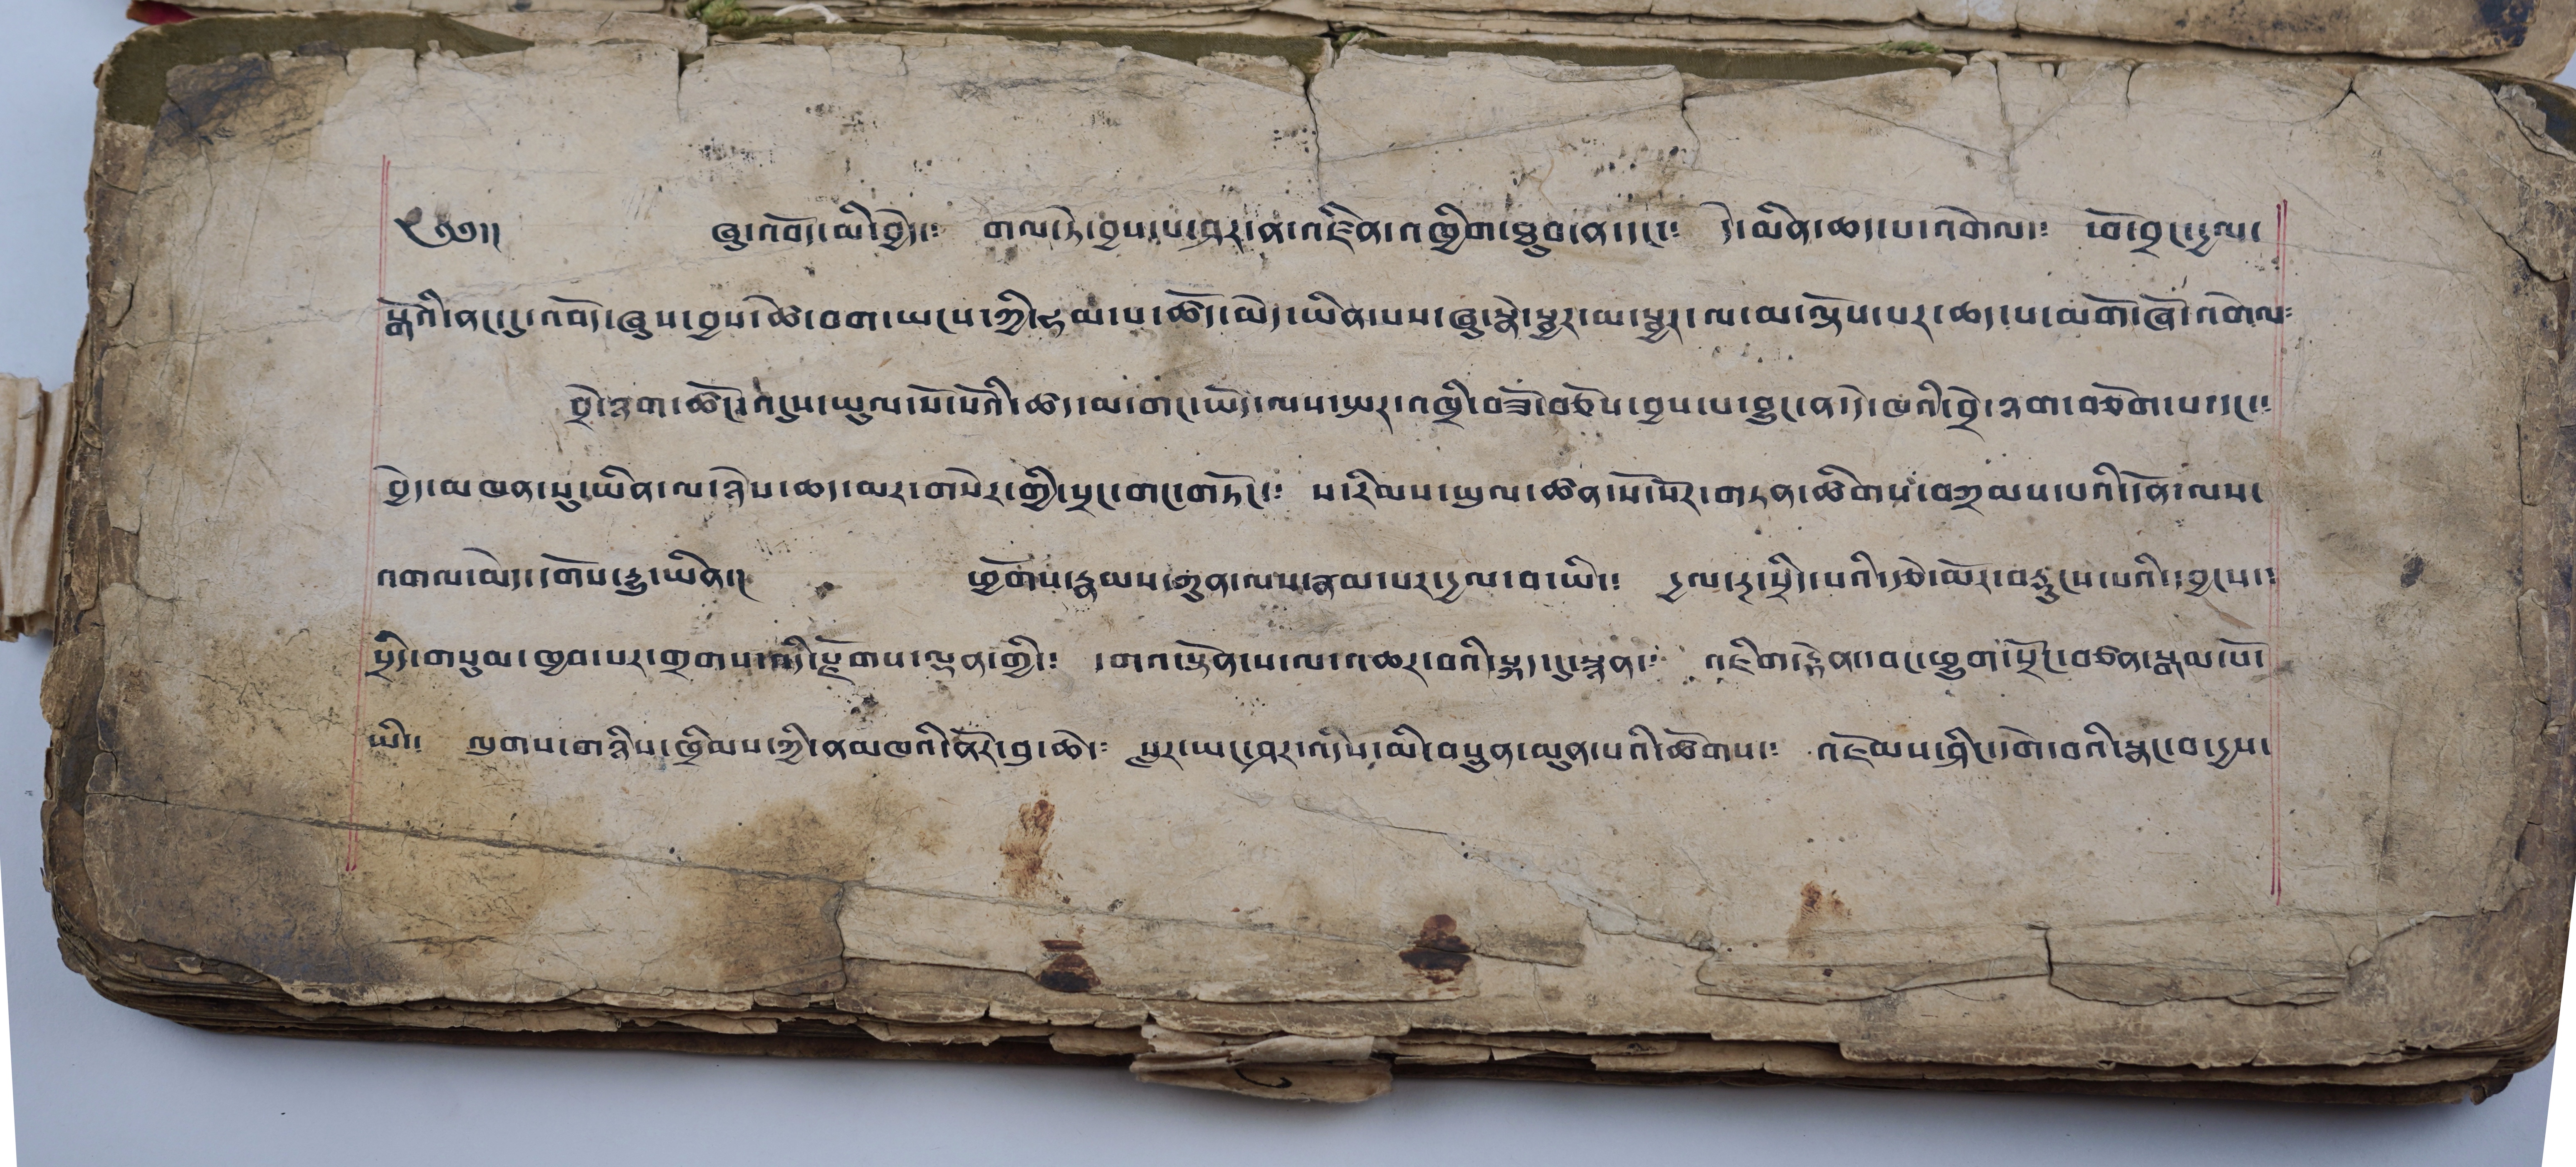༡༥
༄༅།། ཞུ་འབོད་མི་བྱེད་༴ གལ་ཏེ་བྱས་པ་ཤར་ན་འཛིན་འཁྱིག་ཐུབ་ན་དང་༴ དེ་མིན་ཆད་པ་འགེལ་༴ ཕོ་བྲང་དྱལ་
སྒོའི་ནང་དུ་འབོད་ཞུས་བྱས་ཚེ་བག་ཡངས་ཀྱི་ཧམ་པ་ཚོད་མེད་ཡིན་པས་ཞུ་སྣེ་སྦྱར་མ་སྦྱར་ལ་མ་ལྟོས་པར་ཆད་པ་མགོ་ཞོ་འགེལ༴
བྲེ་ཉག་ཚོང་འདུས་ཡུལ་སོ་སོའི་ཚད་མ་གང་ཡོད་ལས་སྤར་འཁྲི་བཟོ་བཅོས་བྱས་པ་བྱུང་ན་དེ་ཁའི་བྲེ་ཉག་བཅོག་པ་དང་༴
བྱེད་མཁན་སུ་ཡིན་ལ་ཉེས་ཆད་མར་གསེར་གྱི་སྲང་གང་གཏོང་༴ ས་རིམས་ཡུལ་ཚན་སོ་སོར་གཏན་ཚིགས་བཀྲམས་པའི་དོན་ལས་
འགལ་མེད་དགོས་རྒྱུ་ཡིན་༴ ཕྱོགས་རྣམས་ཀུན་ལས་རྣམ་པར་དྱལ་བ་ཡི་༴ དྱལ་རྔ་སྲིད་པའི་རྩེ་མོར་བརྡུངས་པའི་དབྱངས་༴
སྲིད་གསུམ་ཁྱབ་པར་གྲགས་གྱི་རྫོགས་ལྡན་གྱི་༴ དགའ་སྟོན་ས་ལ་འཆར་བའི་སྐད་དུ་སྙན་༴ འཇིག་རྟེན་དབང་ཕྱུག་སྲོང་བཙན་སྒམ་པོ་
ཡི་༴ ལུགས་གཉིས་ཁྲིམས་ཀྱི་ནམཁའི་ནོར་བུ་ཆེ་༴ སླར་ཡང་ཤར་འདིས་མི་བསྲུན་མུན་པའི་ཚོགས་༴ འཛོམས་ཤིང་དགེ་བའི་སྣང་བ་དྱས་
